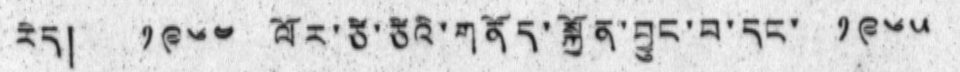རེད། ༡༩༦༤ ལོར་ཙི་ཙིའི་གནོད་སྐྱོན་བྱུང་བ་དང་ ༡༩༦༥
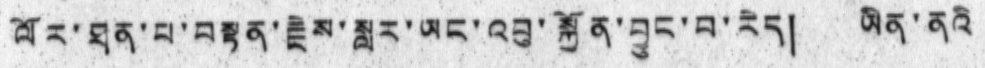ལོར་ཐན་པ་བསྟན་རྗེས་སླར་ཡང་འབུ་སྐྱོན་བྱུང་བ་རེད། ཡིན་ནའི
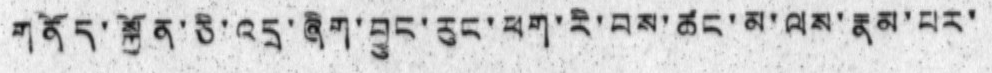གནོད་སྐྱོན་ཅི་འདྲ་ཞིག་བྱུང་རུང་ཕག་རི་བས་ཚང་མ་ལས་རྣམ་པར་
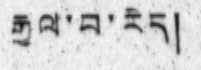རྒྱལ་བ་རེད།
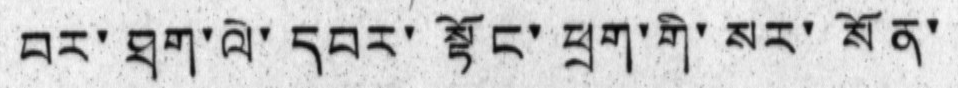བར་ཐག་ལེ་དབར་སྟོང་ཕྲག་གི་སར་སོན་
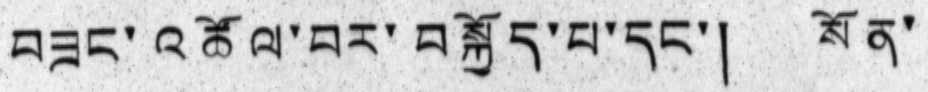བཟང་འཚོལ་བར་བསྐྱོད་པ་དང་། སོན་
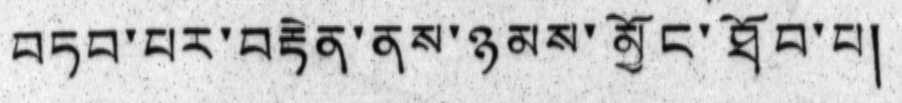བཏབ་པར་བརྟེན་ནས་ཉམས་མྱོང་ཐོབ་པ།
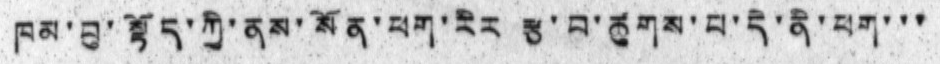ཁམ་བུ་སྟོད་ཀྱི་ནས་སོན་ཕག་རིར་རྩ་བ་ཚུགས་པ་དེ་ནི་ཕག་་་
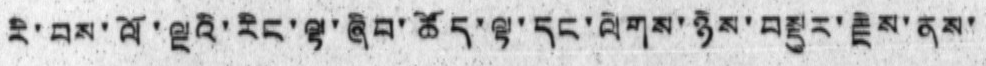རི་བས་ལོ་ལྔའི་རིང་ལྟ་ཞིབ་ཚོད་ལྟ་དང་ལེགས་ཉེས་བསྡུར་རྗེས་ནས་
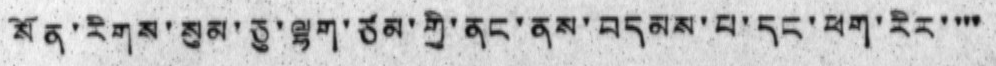སོན་རིགས་སུམ་ཅུ་ལྷག་ཙམ་གྱི་ནང་ནས་བདམས་པ་དང་ཕག་རིར་་་་
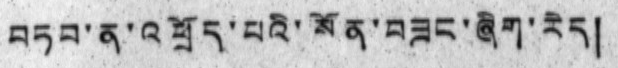བཏབ་ན་འཕྲོད་པའི་སོན་བཟང་ཞིག་རེད།
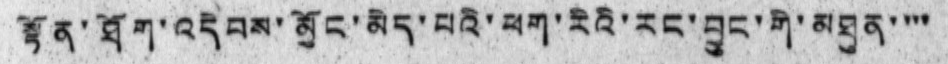སྟོན་ཐོག་འདེབས་མྱོང་མེད་པའི་ཕག་རིའི་རང་བྱུང་གི་མཐུན་་་་
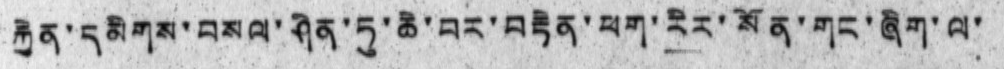རྐྱེན་དམིགས་བསལ་དང་ཤིན་ཏུ་ཆེ་བར་བརྟེན་ཕག་རིར་སོན་གང་ཞིག་ལ་
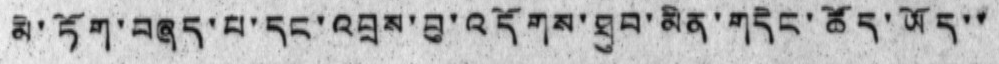མེ་ཏོག་བཞད་པ་དང་འབྲས་བུ་འདོགས་ཐུབ་མིན་གདེང་ཚོད་ཡོད་་
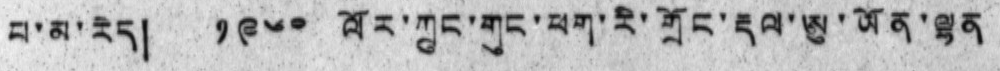པ་མ་རེད། ༡༩༦༠ ལོར་ཀྲུང་གུང་ཕག་རི་གྲོང་རྡལ་ཨུ་ཡོན་ལྷན
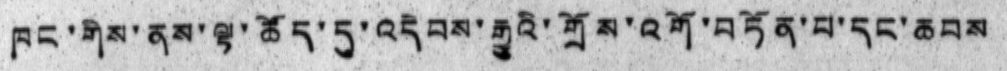ཁང་གིས་ནས་ལྟ་ཚོད་དུ་འདེབས་རྒྱུའི་གྲོས་འགོ་བཏོན་པ་དང་ཆབས
